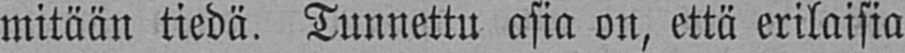mitään tiedä. Tunnettu asia on, että erilaisia
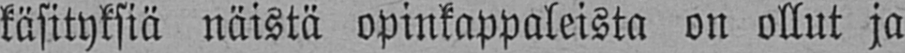käsityksiä näistä opinkappaleista on ollut ja
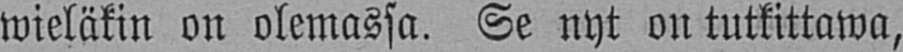wieläkin on olemassa. Se nyt on tutkittawa,
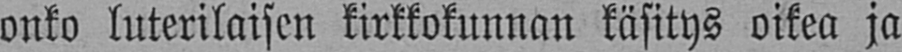onko luterilaisen kirkkokunnan käsitys oikea ja
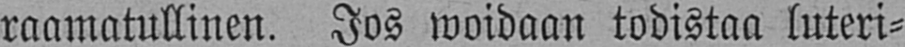raamatullinen. Jos woidaan todistaa luteri-
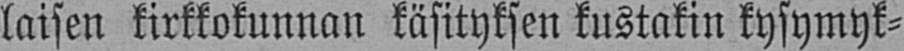laisen kirkkokunnan käsityksen kustakin kysymyk-
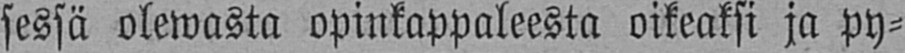sessä olewasta opinkappaleesta oikeaksi ja py-
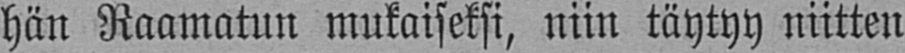hän Raamatun mukaiseksi, niin täytyy niitten
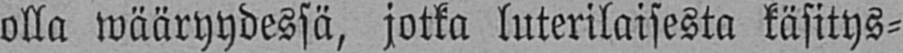olla wääryydessä, jotka luterilaisesta käsitys-
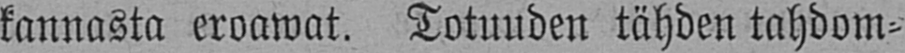kannasta eroawat. Totuuden tähden tahdom-
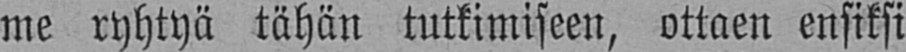me ryhtyä tähän tutkimiseen, ottaen ensiksi
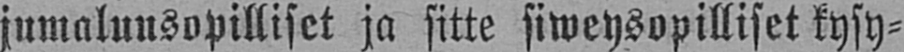jumaluusopilliset ja sitte siweysopilliset kysy-
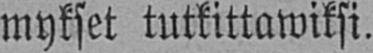mykset tutkittawiksi.
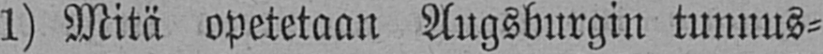1) Mitä opetetaan Augsburgin tunnus-
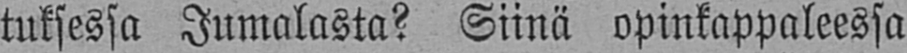tuksessa Jumalasta? Siinä opinkappaleessa
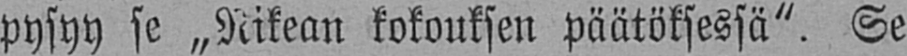pysyy se „Nikean kokouksen päätöksessä". Se
